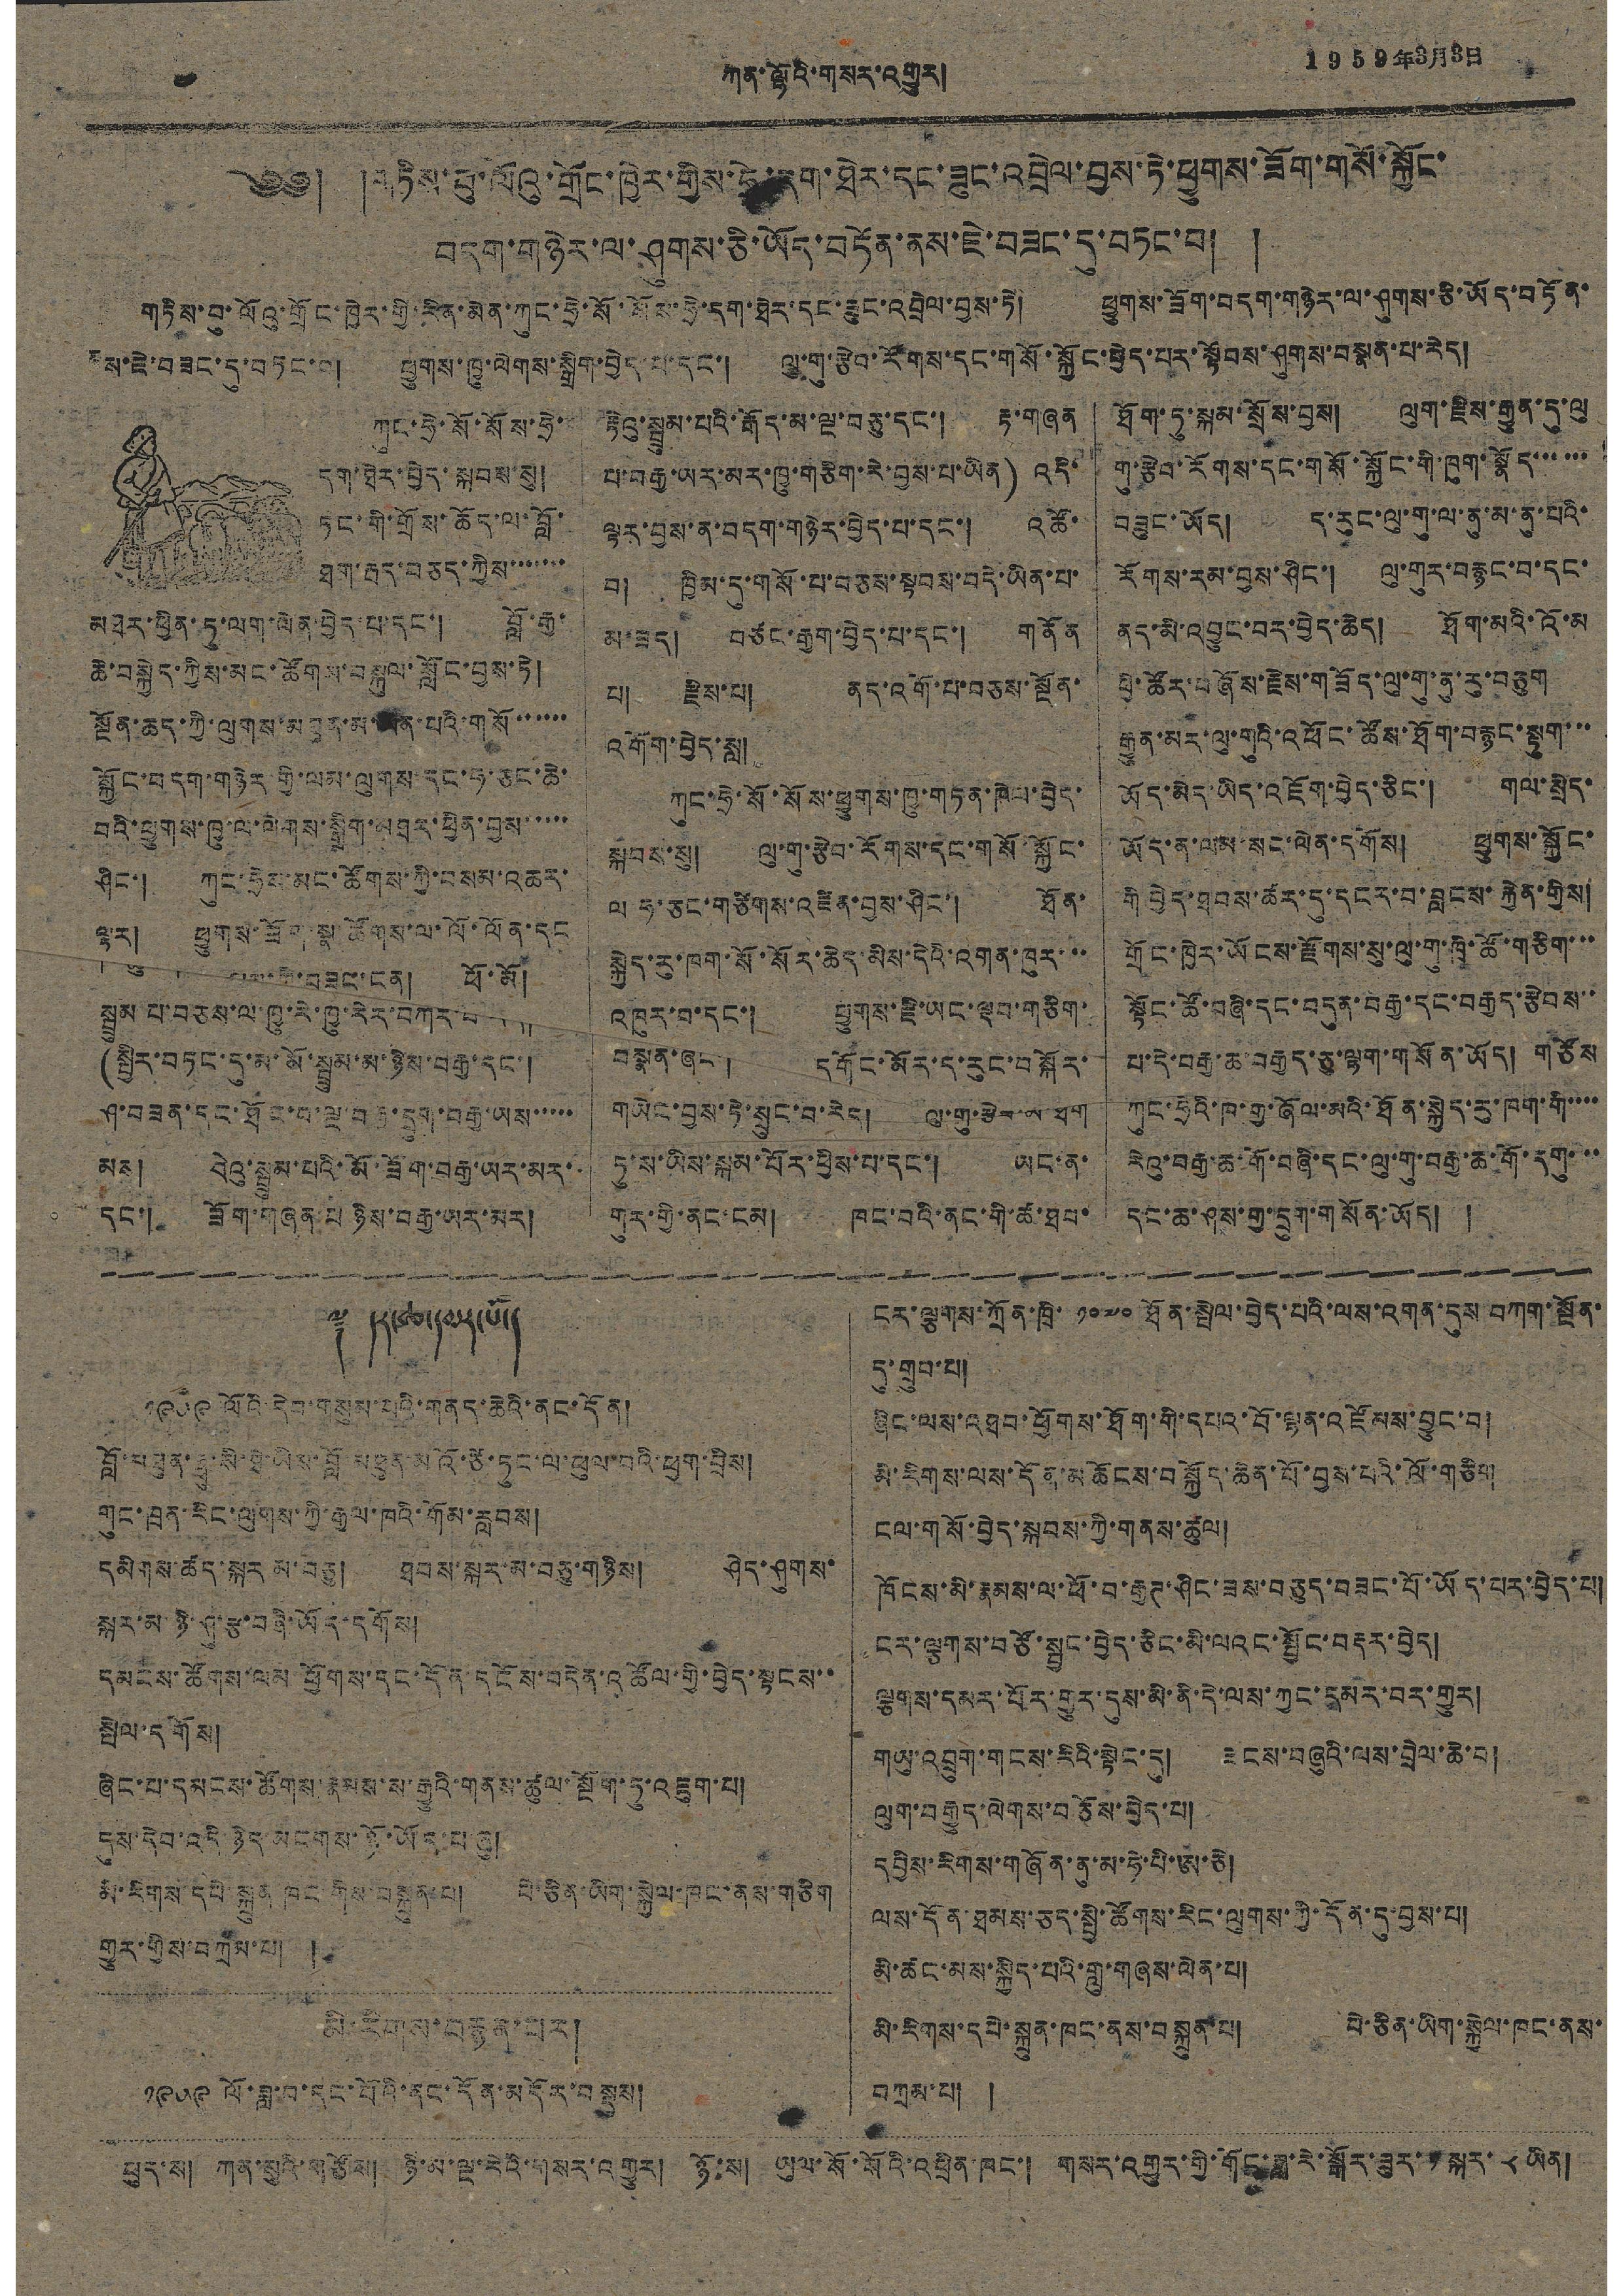༤ ཀན་ལྷོའི་གསར་འགྱུར། 1959年3月3日
༄༅། །གཏིས་བུ་ལོའུ་གྲོང་ཁྱེར་གྱིས་ཧྲེ་དག་ཐེར་དང་ཟུང་འབྲེལ་བྱས་ཏེ་ཕྱུགས་ཟོག་གསོ་སྐྱོང་
བདག་གཉེར་ལ་ཤུགས་ཅི་ཡོད་བཏོན་ནས་ཇེ་བཟང་དུ་བཏང་བ། །
གཏིས་བུ་ལོའུ་གྲོང་ཁྱེར་གྱི་རིན་མིན་ཀུང་ཧྲེ་སོ་སོས་ཧྲེ་དག་ཐེར་དང་ཟུང་འབྲེལ་བྱས་ཏེ། ཕྱུགས་ཟོག་བདག་གཉེར་ལ་ཤུགས་ཅི་ཡོད་བཏོན་
བས་ཇེ་བཟང་དུ་བཏང་བ། ཕྱུགས་ཁྱུ་ལེགས་སྒྲིག་བྱེད་པ་དང་། ལུ་གུ་རྩེབ་རོགས་དང་གསོ་སྐྱོང་བྱེད་པར་སྟོབས་ཤུགས་བསྣན་པ་རེད།
ཀུང་ཧྲེ་སོ་སོས་ཧྲེ་
དག་ཐེར་བྱེད་སྐབས་སུ།
ཏང་གི་གྲོས་ཆོད་ལ་བློ་
ཐག་རྦད་བཅད་ཀྱིས་་་་་་་
མཐར་ཕྱིན་ཏུ་ལག་ལེན་བྱེད་པ་དང་། བློ་རྒྱ་
ཆེ་བསྐྱེད་ཀྱིས་མང་ཚོགས་བསྐུལ་སློང་བྱས་ཏེ།
སྔོན་ཆད་ཀྱི་ལུགས་མཐུན་མ་ཡིན་པའི་གསོ་་་་་་
སྐྱོང་བདག་གཉེར་གྱི་ལམ་ལུགས་དང་ཧ་ཅང་ཆེ་
བའི་ཕྱུགས་ཁྱུ་ལ་ལེགས་སྒྲིག་མཐར་ཕྱིན་བྱས་་་་་
ཤིང་། ཀུང་ཧྲེས་མང་ཚོགས་ཀྱི་བསམ་འཆར་
ལྟར། ཕྱུགས་ཟོག་སྣ་ཚོགས་ལ་ལོ་ལོན་དང
ཆུ    ལས་གི་བཟང་ངན། ཕོ་མོ།
སྦྲུམ་པ་བཅས་ལ་ཁྱུ་རེ་ཁྱུ་རེར་བཀར་བ་རེད།
(སྤྱིར་བཏང་དུ་མ་མོ་སྦྲུམ་མ་ཉིས་བརྒྱ་དང་།
ཤ་བཟན་དང་ཐོང་བ་ལྔ་བརྒྱ་དྲུག་བརྒྱ་ཡས་་་་་
མས། བེའུ་སྦྲུམ་པའི་མོ་ཟོག་བརྒྱ་ཡར་མར་
དང་། ཟོག་གཞན་པ ཉིས་བརྒྱ་ཡར་མར།
རྟེའུ་སྦྲུམ་པའི་རྒོད་མ་ལྔ་བཅུ་དང་། རྟ་གཞན
པ་བརྒྱ་ཡར་མར་ཁྱུ་གཅིག་རེ་བྱས་པ་ཡིན) འདི་
ལྟར་བྱས་ན་བདག་གཉེར་བྱེད་པ་དང་། འཚོ་
བ། ཁྱིམ་དུ་གསོ་པ་བཅས་སྟབས་བདེ་ཡིན་པ་
མ་ཟད། བཙང་རྒྱག་བྱེད་པ་དང་། གནོན
པ། རྫིས་པ། ནད་འགོ་པ་བཅས་སྔོན་
འགོག་བྱེད་སླ།
ཀུང་ཧྲེ་སོ་སོས་ཕྱུགས་ཁྱུ་གཏན་ཁེཔ་བྱེད་
སྐབས་སུ། ལུ་གུ་རྩེབ་རོགས་དང་གསོ་སྐྱོང་
ལ ཧ་ཅང་གཙིགས་འཛིན་བྱས་ཤིང་། ཐོན་
སྐྱེད་རུ་ཁག་སོ་སོར་ཆེད་མིས་དེའི་འགན་ཁུར་་་
འཁུར་བ་དང་། ཕྱུགས་རྫི་ཡང་ལྡབ་གཅིག་
བསྣན་ཞིང་། དགོང་མོར་ད་རུང་བསྐོར་
གཡེང་བྱས་ཏེ་སྲུང་བ་རེད། ལུ་གུ་རྩེས་མ་ཐག་
ཏུ་ས་ཡིས་སྐམ་པོར་ཕྱིས་པ་དང་། ཡང་ན་
གུར་གྱི་ནང་ངམ། ཁང་བའི་ནང་གི་ཚ་ཐབ་
ཐོག་ཏུ་སྐམ་སྲོས་བྱས། ལུག་རྫིས་རྒྱུན་དུ་ལུ
གུ་རྩེབ་རོགས་དང་གསོ་སྐྱོང་གི་ཁུག་སྣོད་་་་་་
བཟུང་ཡོད། ད་རུང་ལུ་གུ་ལ་ནུ་མ་ནུ་པའི་
རོགས་རམ་བྱས་ཤིང་། ལུ་གུར་བརྙང་བ་དང་
ནད་མི་འབྱུང་བར་བྱེད་ཆེད། ཐོག་མའི་འོ་མ
ཕྱི་ཚོར་བཞོས་རྗེས་གཟོད་ལུ་གུ་ནུ་རུ་བཅུག
རྒྱུན་མར་ལུ་གུའི་འཕོང་ཚོས་ཐོག་བརྙང་སྟུག་་་
ཡོད་མེད་ཡིད་འཇོག་བྱེད་ཅིང་། གལ་སྲིད་
ཡོད་ན་ལམ་སང་ལེན་དགོས། ཕྱུགས་སྐྱོང་
གི་བྱེད་ཐབས་ཚར་དུ་དངར་བ་བླངས་རྐྱེན་གྱིས།
གྲོང་ཁྱེར་ཡོངས་རྫོགས་སུ་ལུ་གུ་ཁྲི་ཚོ་གཅིག་་་
སྟོང་ཚོ་བཞི་དང་བདུན་བརྒྱ་དང་བརྒྱད་རྩེབས་་
པ་དེ་བརྒྱ་ཆ་བརྒྱད་ཅུ་ལྷག་གསོན་ཡོད། གཙོས
ཀུང་ཧྲེའི་ཁ་གྱ་ཞོལ་མའི་ཐོན་སྐྱེད་རུ་ཁག་གི་་་་
རེའུ་བརྒྱ་ཆ་གོ་བཞི་དང་ལུ་གུ་བརྒྱ་ཆ་གོ་དགུ་་་
དང་ཆ་ཤས་གྱ་དྲུག་གསོན་ཡོད། །
༈ དར་ཚ་དམར་པོ།
༡༩༥༩ ལོའི་དེབ་གསུམ་པའི་གནད་ཆེའི་ནང་དོན།
བློ་བཐུན་གྲུ་སི་ཐེ་ཡིས་བློ་མཐུན་མའོ་ཙེ་ཏུང་ལ་ཕུལ་བའི་ཕྱག་བྲིས།
གུང་ཁྲན་རིང་ལུགས་ཀྱི་རྒྱལ་ཁའི་གོམ་རླབས།
དམིགས་ཚད་སྐར མ་བཅུ། ཐབས་སྐར་མ་བཅུ་གཉིས། ཤེད་ཤུགས་
སྐར་མ་ཉི་ཤུ་རྩ་བཞི་ཡོད་དགོས།
དམངས་ཚོགས་ལམ་ཕྱོགས་དང་དོན་དངོས་བདེན་འཚོལ་གྱི་བྱེད་སྟངས་་
སྤེལ་དགོས།
ཞིང་པ་དམངས་ཚོགས་རྣམས་ས་རྒྱུའི་གནས་ཚུལ་སྔོག་ཏུ་འཇུག་པ།
དུས་དེབ་འདི་ཉིད་མངགས་ཉོ་ཡོད་པ་ཞུ།
མི་རིགས་དཔེ་སྐྲུན ཁང གིས་བསྐྲུན་པ། པེ་ཅིན་ཡིག་སྐྱེལ་ཁང་ནས་གཅིག
གྱུར་གྱིས་བཀྲམ་པ། །
མི་རིགས་བརྙན་པར།
༡༩༥༩ ལོ་ཟླ་བ་དང་པོའི་ནང་དོན་མདོར་བསྡུས།
ངར་ལྕགས་ཀྲོན་ཁྲི་ ༡༠༧༠ ཐོན་སྤེལ་བྱེད་པའི་ལས་འགན་དུས བཀག་སྔོན་
དུ་གྲུབ་པ།
ཞིང་ལས་འཐབ་ཕྱོགས་ཐོག་གི་དཔའ་བོ་ལྷན་འཛོམས་བྱུང་བ།
མི་རིགས་ལས་དོན་མཆོངས་བསྐྱོད་ཆེན་པོ་བྱས་པའི་ལོ་གཅིག
ངལ་གསོ་བྱེད་སྐབས་ཀྱི་གནས་ཚུལ།
ཁོངས་མི་རྣམས་ལ་ཕོ་བ་རྒྱཊ་ཤིང་ཟས་བཅུད་བཟང་པོ་ཡོད་པར་བྱེད་པ།
ངར་ལྕགས་བཙོ་སྦྱང་བྱེད་ཅིང་མི་ལའང་སྦྱོང་བརྡར་བྱེད།
ལྕགས་དམར་པོར་གྱུར་དུས་མི་ནི་དེ་ལས་ཀྱང་དམར་བར་གྱུར།
གཡུ་འབྲུག་གངས་རིའི་སྟེང་དུ། ཟངས་བཞུའི་ལས་བྲེལ་ཆེ་བ།
ལུག་བརྒྱུད་ལེགས་བཅོས་བྱེད་པ།
དབྱིས་རིགས་གཞོན་ནུ་མ་ཧེ་པི་ཨ་ཅེ།
ལས་དོན་ཐམས་ཅད་སྤྱི་ཚོགས་རིང་ལུགས་ཀྱི་དོན་དུ་བྱས་པ།
མི་ཚང་མས་སྐྱིད་པའི་གླུ་གཞས་ལེན་པ།
མི་རིགས་དཔེ་སྐྲུན་ཁང་ནས་བསྐྲུན་པ། པེ་ཅིན་ཡིག་སྐྱེལ་ཁང་ནས་
བཀྲམ་པ། །
ཕུད་ས། ཀན་སུའི་གཙོས། ཉི་མ་ལྔ་རེའི་གསར་འགྱུར། ཉོ་ས། ཡུལ་སོ་སོའི་འཕྲིན་ཁང་། གསར་འགྱུར་གྱི་གོང་ཟླ་རེ་སྒོར་ཟུར་ ༡ སྐར་ ༨ ཡིན།
